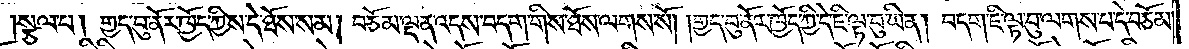སྩལ་པ། གྱད་བུ་ནོར་ཁྱོད་ཀྱིས་དེ་ཐོས་སམ། བཅོམ་ལྡན་འདས་བདག་གིས་ཐོས་ལགས་སོ། །གྱད་བུ་ནོར་ཁྱོད་ཀྱི་དེ་ཇི་ལྟ་བུ་ཡིན། བདག་ཇི་ལྟ་བུ་ལགས་པ་དེ་བཅོམ་
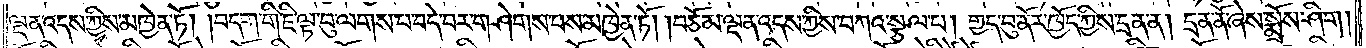ལྡན་འདས་ཀྱིས་མཁྱེན་ཏོ། །བདག་གི་ཇི་ལྟ་བུ་ལགས་པ་བདེ་བར་གཤེགས་པས་མཁྱེན་ཏོ། །བཅོམ་ལྡན་འདས་ཀྱིས་བཀའ་སྩལ་པ། གྱད་བུ་ནོར་ཁྱོད་ཀྱིས་དྲན་ན། དྲན་ནོ་ཞེས་སྨྲོས་ཤིག་
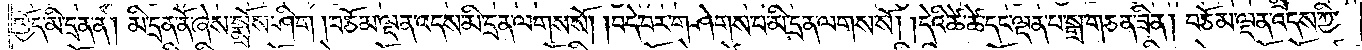ཁྱོད་མི་དྲན་ན། མི་དྲན་ནོ་ཞེས་སྨྲོས་ཤིག །བཅོམ་ལྡན་འདས་མི་དྲན་ལགས་སོ། །བདེ་བར་གཤེགས་པ་མི་དྲན་ལགས་སོ། །དེའི་ཚེ་ཚེ་དང་ལྡན་པ་སྒྲ་གཅན་ཟིན། བཅོམ་ལྡན་འདས་ཀྱི་
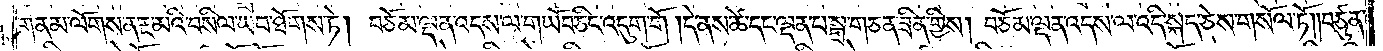གནམ་ལོགས་ན་རྔ་མའི་བསིལ་ཡབ་ཐོགས་ཏེ། བཅོམ་ལྡན་འདས་ལ་གཡོབ་ཅིང་འདུག་གོ །དེ་ནས་ཚེ་དང་ལྡན་པ་སྒྲ་གཅན་ཟིན་གྱིས། བཅོམ་ལྡན་འདས་ལ་འདི་སྐད་ཅེས་གསོལ་ཏོ། །བཙུན་
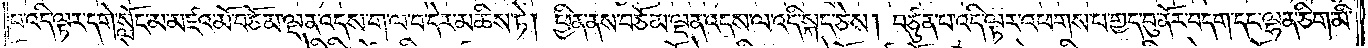པ་འདི་ལྟར་དགེ་སློང་མ་མཛའ་མོ་བཅོམ་ལྡན་འདས་ག་ལ་བ་དེར་མཆིས་ཏེ། ཕྱིན་ནས་བཅོམ་ལྡན་འདས་ལ་འདི་སྐད་ཅེས། བཙུན་པ་འདི་ལྟར་འཕགས་པ་གྱད་བུ་ནོར་བདག་དང་ལྷན་ཅིག་མི་
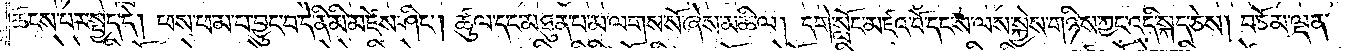ཚངས་པར་སྤྱད་དེ། ཕས་ཕམ་པ་བྱུང་བ་དེ་ནི་མི་མཛེས་ཤིང༌། ཚུལ་དང་མཐུན་པ་མ་ལགས་སོ་ཞེས་མཆི་ལ། དགེ་སློང་མཛའ་བོ་དང་ས་ལས་སྐྱེས་གཉིས་ཀྱང་འདི་སྐད་ཅེས། བཅོམ་ལྡན་
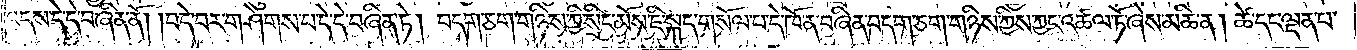འདས་དེ་དེ་བཞིན་ནོ། །བདེ་བར་གཤེགས་པ་དེ་དེ་བཞིན་ཏེ། བདག་ཅག་གཉིས་ཀྱི་སྲིང་མོས་ཇི་སྐད་གསོལ་བ་དེ་ཁོ་ན་བཞིན་བདག་ཅག་གཉིས་ཀྱིས་ཀྱང་འཚལ་ཏོ་ཞེས་མཆི་ན། ཚེ་དང་ལྡན་པ་
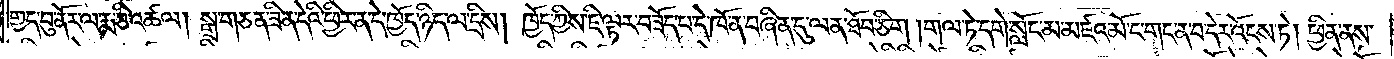གྱད་བུ་ནོར་ལ་རྨ་ཅི་འཚལ། སྒྲ་གཅན་ཟིན་དེའི་ཕྱིར་ན་དེ་ཁྱོད་ཉིད་ལ་དྲིས། ཁྱོད་ཀྱིས་ཇི་ལྟར་བཟོད་པ་དེ་ཁོ་ན་བཞིན་དུ་ལན་ཐོབ་ཅིག །གལ་ཏེ་དགེ་སློང་མ་མཛའ་མོ་ང་གང་ན་བ་དེར་འོངས་ཏེ། ཕྱིན་ནས་
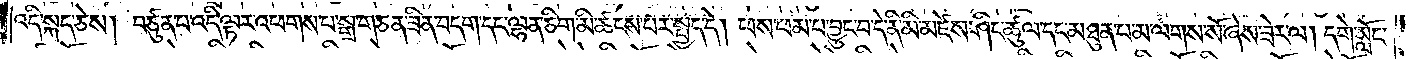འདི་སྐད་ཅེས། བཙུན་པ་འདི་ལྟར་འཕགས་པ་སྒྲ་གཅན་ཟིན་བདག་དང་ལྷན་ཅིག་མི་ཚངས་པར་སྤྱད་དེ། ཕས་ཕམ་པ་བྱུང་བ་དེ་ནི་མི་མཛེས་ཤིང་ཚུལ་དང་མཐུན་པ་མ་ལགས་སོ་ཞེས་ཟེར་ལ། དགེ་སློང་
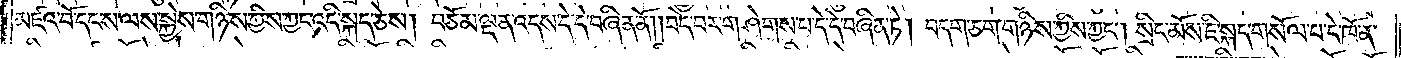མཛའ་བོ་དང་ས་ལས་སྐྱེས་གཉིས་ཀྱིས་ཀྱང་འདི་སྐད་ཅེས། བཅོམ་ལྡན་འདས་དེ་དེ་བཞིན་ནོ། །བདེ་བར་གཤེགས་པ་དེ་དེ་བཞིན་ཏེ། བདག་ཅག་གཉིས་ཀྱིས་ཀྱང༌། སྲིང་མོས་ཇི་སྐད་གསོལ་བ་དེ་ཁོ་ན་
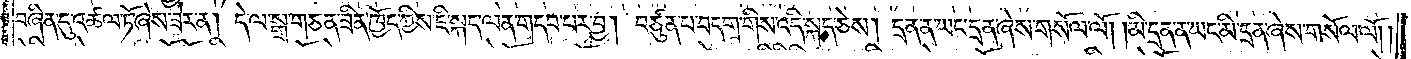བཞིན་དུ་འཚལ་ཏོ་ཞེས་ཟེར་ན། དེ་ལ་སྒྲ་གཅན་ཟིན་ཁྱོད་ཀྱིས་ཇི་སྐད་ལན་གདབ་པར་བྱ། བཙུན་པ་བདག་གིས་འདི་སྐད་ཅེས། དྲན་ན་ཡང་དྲན་ཞེས་གསོལ་ལོ། །མི་དྲན་ན་ཡང་མི་དྲན་ཞེས་གསོལ་ལོ། །
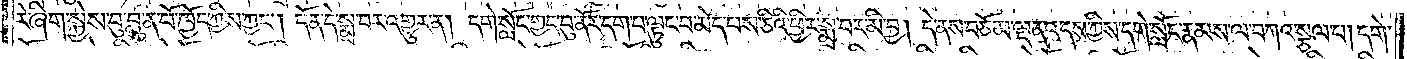རེ་ཞིག་སྐྱེས་བུ་བླུན་པོ་ཁྱོད་ཀྱིས་ཀྱང༌། དོན་དེ་སྨྲ་བར་འགྱུར་ན། དགེ་སློང་གྱད་བུ་ནོར་དག་པ་ལྟུང་བ་མེད་པས་ཅིའི་ཕྱིར་སྨྲ་བར་མི་བྱ། དེ་ནས་བཅོམ་ལྡན་འདས་ཀྱིས་དགེ་སློང་རྣམས་ལ་བཀའ་སྩལ་པ། དགེ་
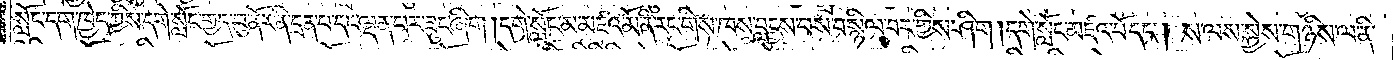སློང་དག་ཁྱེད་ཀྱིས་དགེ་སློང་གྱད་བུ་ནོར་ནི་དྲན་པ་དང་ལྡན་པར་ཟུང་ཞིག །དགེ་སློང་མ་མཛའ་མོ་ནི་རང་གིས་ཁས་བླངས་པས་བསྙིལ་བར་གྱིས་ཤིག །དགེ་སློང་མཛའ་བོ་དང༌། ས་ལས་སྐྱེས་གཉིས་ལ་ནི་
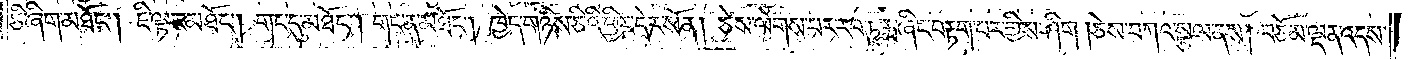ཅི་ཞིག་མཐོང༌། ཇི་ལྟར་མཐོང༌། གང་དུ་མཐོང༌། གང་ན་མཐོང༌། ཁྱེད་གཉིས་ཅིའི་ཕྱིར་དེར་སོན། ཅེས་ལེགས་པར་རབ་ཏུ་རྨ་ཞིང་བརྟག་པར་གྱིས་ཤིག །ཅེས་བཀའ་སྩལ་ནས། བཅོམ་ལྡན་འདས་
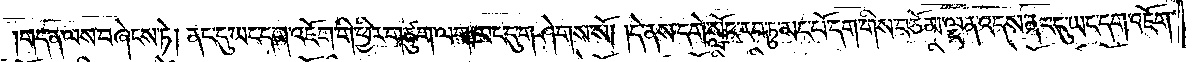གདན་ལས་བཞེངས་ཏེ། ནང་དུ་ཡང་དག་འཇོག་གི་ཕྱིར་གཙུག་ལག་ཁང་དུ་གཤེགས་སོ། །དེ་ནས་དགེ་སློང་རབ་ཏུ་མང་པོ་དག་གིས་བཅོམ་ལྡན་འདས་ནང་དུ་ཡང་དག་འཇོག་
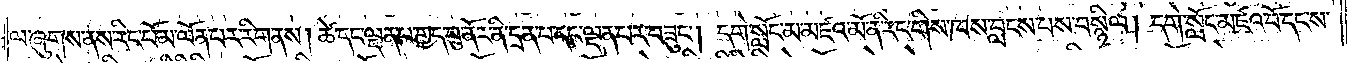ལ་ཞུགས་ནས་རིང་པོ་མ་ལོན་པར་རིག་ནས། ཚེ་དང་ལྡན་པ་གྱད་བུ་ནོར་ནི་དྲན་པ་དང་ལྡན་པར་བཟུང༌། དགེ་སློང་མ་མཛའ་མོ་ནི་རང་གིས་ཁས་བླངས་པས་བསྙིལ། དགེ་སློང་མཛའ་བོ་དང་ས་
